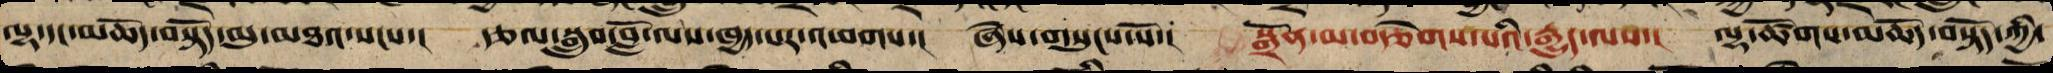ལྷ་དང་མཆོད་བསྟོད་མུ་མཐའ་སངས་། རྩལ་སྒྲུབ་བློ་ལས་ཁྱད་པར་འཕགས་། ཞེས་གསུངས་སོ་། སྒྲོན་མ་བརྩེགས་པའི་རྒྱུད་ལས་། ལྷ་ཚོགས་མཆོད་བསྟོད་ཀྱི་
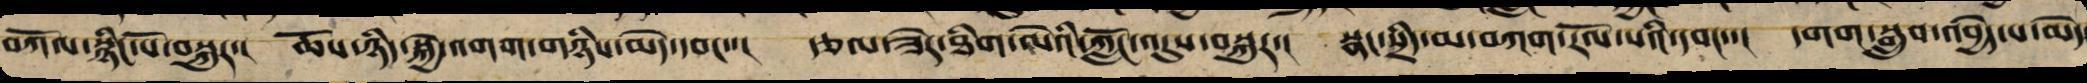བཀོལ་སྙིང་པོར་བསྐུར་། ཆོས་ཉིད་སྐྱེ་འགག་གཉིས་མེད་དབང་་། རྩལ་ཟེར་ཐིག་ལེའི་ཀློང་འདུས་བསྐུར་། སྣང་སྲིད་མ་བཀག་རོལ་པའི་དབང་་། དགག་སྒྲུབ་འབྱེད་པ་མེད
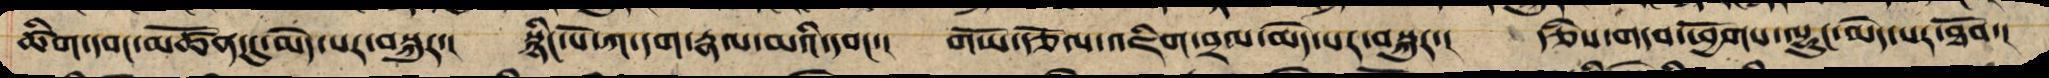ཚིག་དབང་མཚོན་དུ་མེད་པར་བསྐུར་། སྙིང་པོ་ཀ་དག་རྣལ་མའི་དབང་་། གཡོ་རྩོལ་འཇིག་བྲལ་མེད་པར་བསྐུར་། རྩིས་གདབ་ཕྱོགས་ལྷུང་མེད་པར་ཐོབ་།
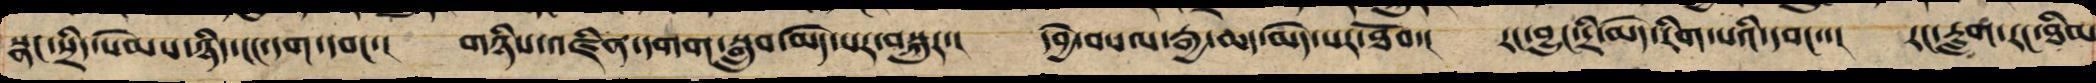སྣང་སྲིད་སེམས་ཉིད་ངང་དག་དབང་། གཉིས་འཛིན་དགག་སྒྲུབ་མེད་པར་བསྐུར་། དབྱེ་བསལ་རྒྱ་ཆད་མེད་པར་ཐོབ་། རང་བྱུང་དྲི་མེད་རིག་པའི་དབང་་། རང་རླག་རང་ཐིམ
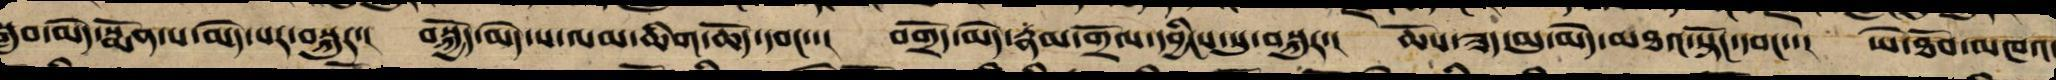སྒྲུབ་མེད་སྨོན་པ་མེད་པར་བསྐུར་། བསྐྱོད་མེད་ས་ལམ་ཆིག་ཆོད་དབང་་། བགྲོད་མེད་རྣམ་གྲོལ་དབྱིངས་སུ་བསྐུར་། ཆོས་ཟད་མུ་མེད་མཐའ་སྟོངས་དབང་་། ཡེ་ཐོབ་མཁའ་
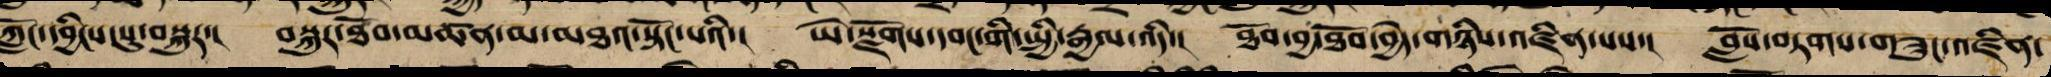ཀློང་དབྱིངས་སུ་བསྐུར་། བསྐུར་ཐོབ་མཚན་མ་མཐའ་སྟོངས་པའི་། ཡེ་སྫོགས་དབང་གི་སྤྱི་རྒྱལ་འདི་། ཐོབ་བྱ་ཐོབ་བྱེད་གཉིས་འཛིན་པའི་། བློས་བཏགས་གཟུང་འཛིན་
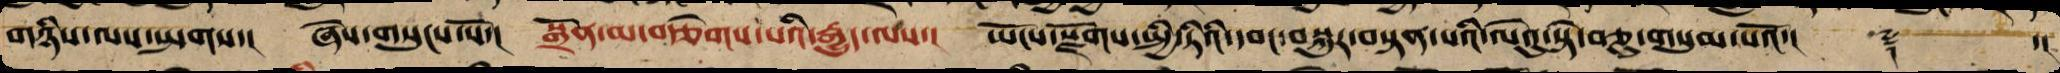གཉིས་ལས་སྤགས་། ཞེས་གསུངས་སོ་། སྒྲོན་མ་བརྩེགས་པའི་རྒྱུད་ལས་། ཡོངས་སྫོགས་སྤྱི་ཏིའི་དབང་བསྐུར་བསྟན་པའི་ལེའུ་སྟེ་བཅུ་གསུམ་པའོ་།། ༈ ་།།
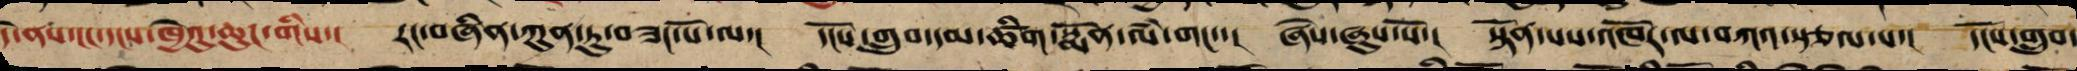དེ་ནས་ངང་དངས་ཁྱེའུ་ཆུང་གིས་། རང་བཞིན་ཀུན་ཏུ་བཟང་པོ་ལ་། དངོས་གྲུབ་དམ་ཚིག་སྨོན་ལཾ་གང་་། ཞེས་ཞུས་སོ་། སྟོན་པས་འཁོར་ལ་བཀའ་སྩལ་པ་། དངོས་གྲུབ་
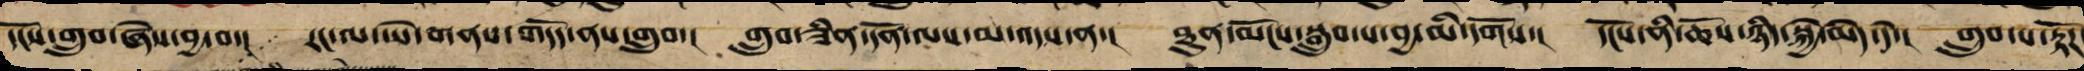དངོས་གྲུབ་ཞེས་བྱ་བ་། རང་ལ་ཡེ་གནས་གདོད་ནས་གྲུབ་། གྲུབ་ཟིན་དོན་ལས་མ་འདས་ན་། ཐུན་མོང་བསྒྲུབ་པ་བྱ་མི་དགོས་། དངོས་ནི་ཆོས་ཉིད་སྐྱེ་མེད་དེ་། གྲུབ་པ་རྟོཌ
